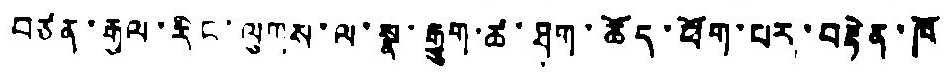བཙན་རྒྱལ་རིང་ལུགས་ལ་སྣ་རྒྱུག་ཚ་ཐག་ཆོད་ཕོག་པར་བརྟེན་ཁོ
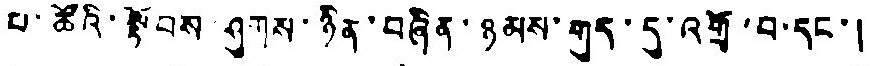པ་ཚོའི་སྟོབས ཤུགས་ཉིན་བཞིན་ཉམས་གུད་དུ་འགྲོ་བ་དང་།
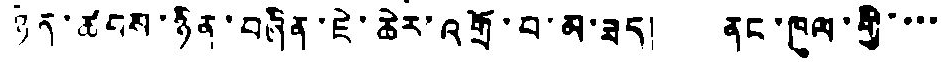ཉན་ཚབས་ཉིན་བཞིན་ཇེ་ཆེར་འགྲོ་བ་མ་ཟད། ནང་ཁུལ་གྱི་་་་
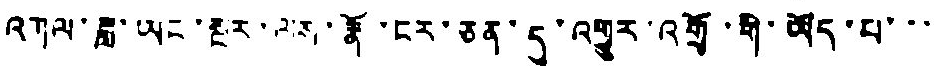འགལ་ཟླ་ཡང་སྔར་ལས་རྣོ་ངར་ཅན་དུ་འགྱུར་འགྲོ་གི་ཡོད་པ་་་
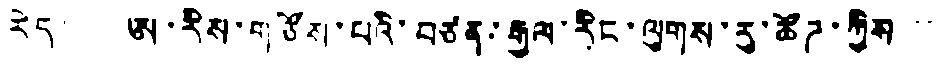རེད། ཨ་རིས་གཙོས་པའི་བཙན་རྒྱལ་རིང་ལུགས་རུ་ཚོཌ་ཀྱིས་་
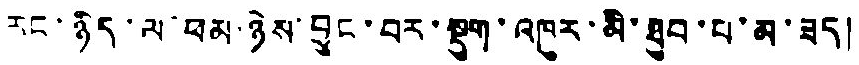རང་ཉིད་ལ་ཕམ་ཉེས་བྱུང་བར་སྡུག་འཁུར་མི་ཐུབ་པ་མ་ཟད།
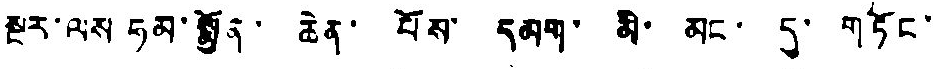སྔར་ལས ཧམ་སྨྱོན་ ཆེན་ པོས་ དམག་ མི་ མང་ དུ་ གཏོང་
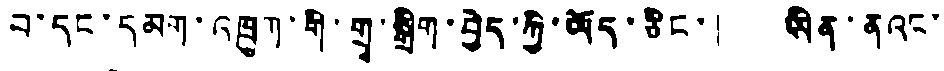བ་དང་དམག་འཁྲུག་གི་གྲྭ་སྒྲིག་བྱེད་ཀྱི་ཡོད་ཅིང་། ཡིན་ནའང་
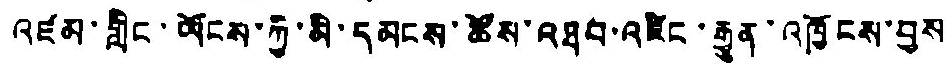འཛམ་གླིང་ཡོངས་ཀྱི་མི་དམངས་ཚོས་འཐབ་འཛིང་རྒྱུན་འཁྱོངས་བྱས
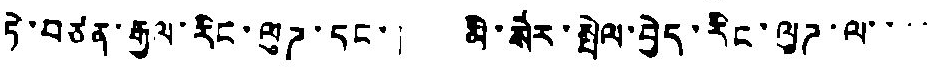ཏེ་བཙན་རྒྱལ་རིང་ལུཌ་དང་། མི་སེར་སྤེལ་བྱེད་རིང་ལུཌ་ལ་་་་
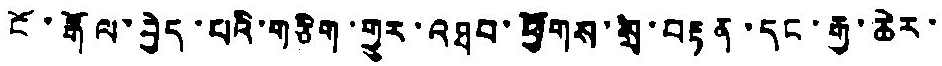ངོ་རྒོལ་བྱེད་པའི་གཅིག་གྱུར་འཐབ་ཕྱོགས་སྲ་བརྟན་དང་རྒྱ་ཆེར་
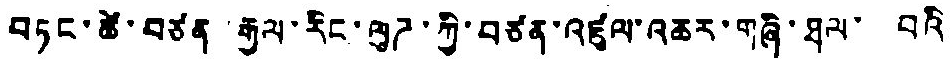བཏང་ཚེ་བཙན རྒྱལ་རིང་ལུཌ་ཀྱི་བཙན་འཛུལ་འཆར་གཞི་ཐལ་ བའི
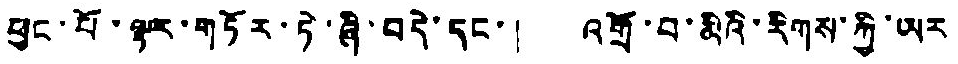ཕུང་པོ་ལྟར་གཏོར་ཏེ་ཞི་བདེ་དང་། འགྲོ་བ་མིའི་རིགས་ཀྱི་ཡར
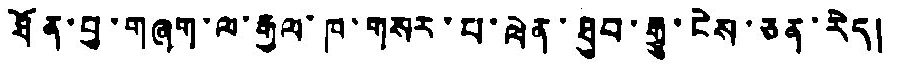ཐོན་བྱ་གཞག་ལ་རྒྱལ་ཁ་གསར་པ་ལེན་ཐུབ་རྒྱུ་ངེས་ཅན་རེད།
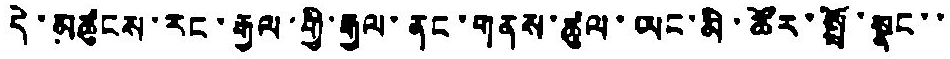དེ་མཚུངས་རང་རྒྱལ་གྱི་རྒྱལ་ནང་གནས་ཚུལ་ཡང་མི་ཚོར་སྤྲོ་སྣང་་
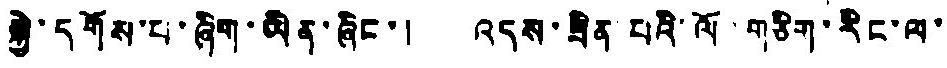སྐྱེ་དགོས་པ་ཞིག་ཡིན་ཞིང་། འདས་ཟིན་པའི་ལོ་གཅིག་རིང་ལ་
